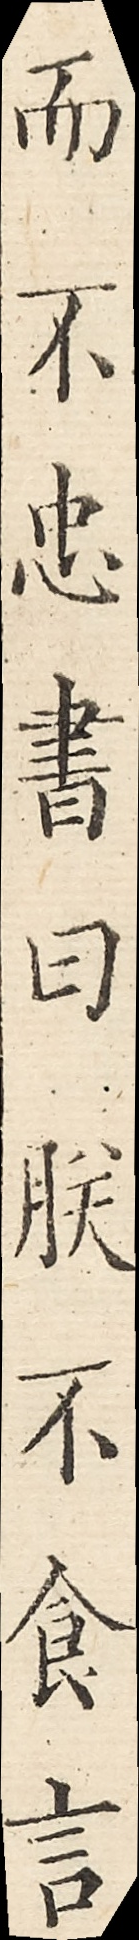而不忠書曰朕不食言
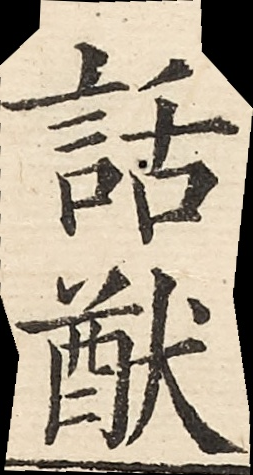話猷
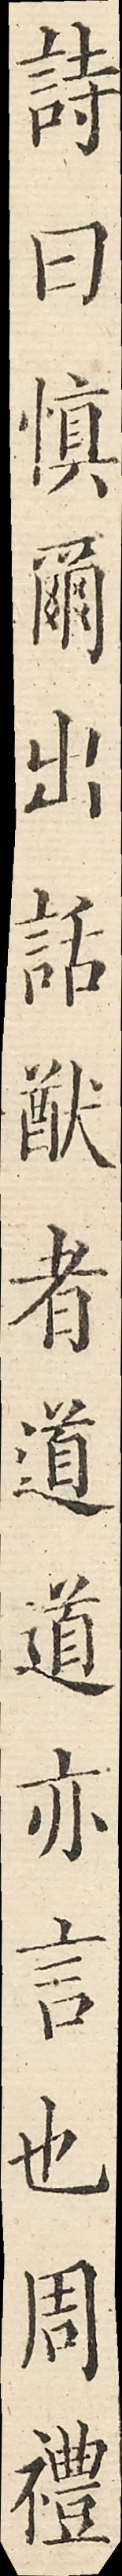詩曰慎爾出話猷者道道亦言也周禮
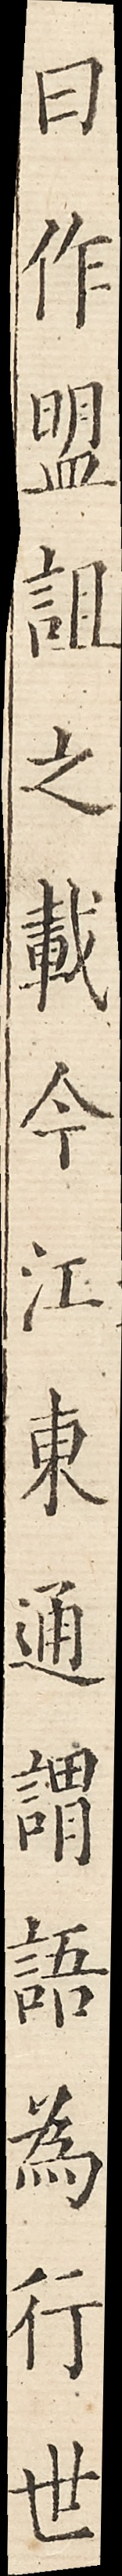曰作盟詛之載今江東通謂語為行世
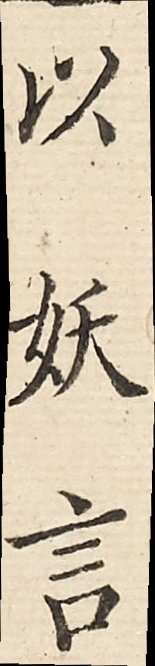以妖言
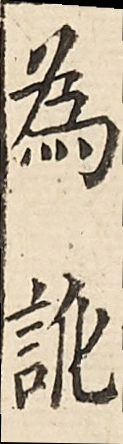為訛
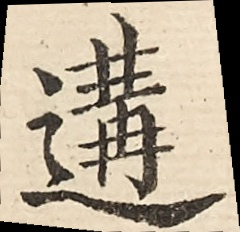遘
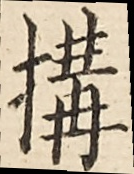搆
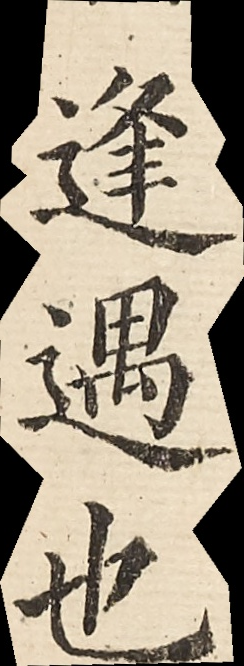逢遇也
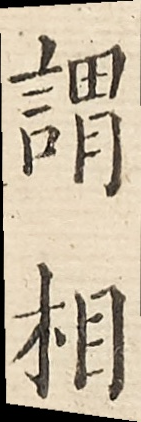謂相
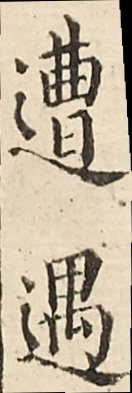遭遇
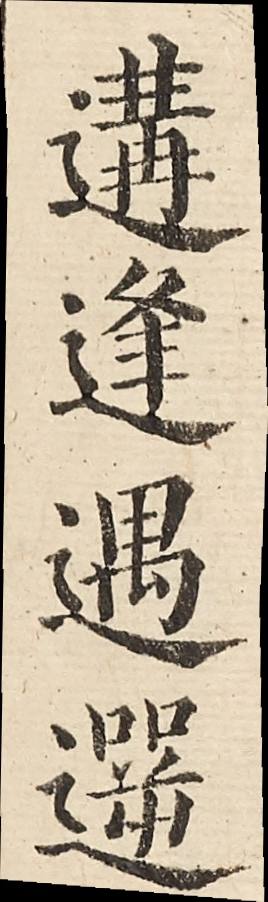遘逢遇遻
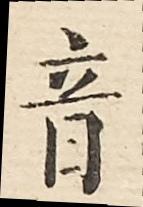音
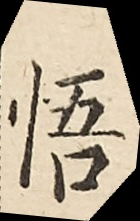悟
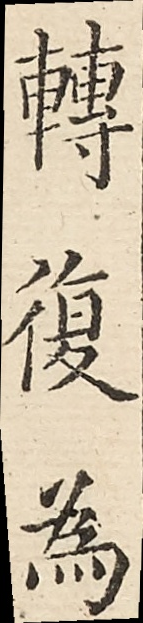轉復為
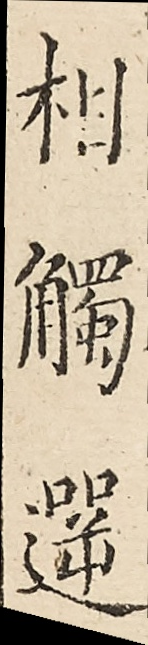相觸遻
